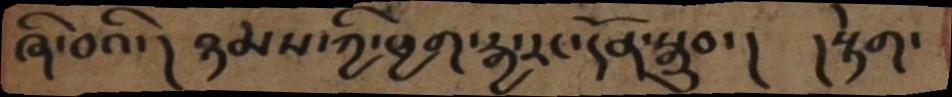ཞི་བའི་།  ཉམས་ཀྱི་ཕྱག་རྒྱ་རང་དོན་སྒྲུབ་།   །སྟེག་
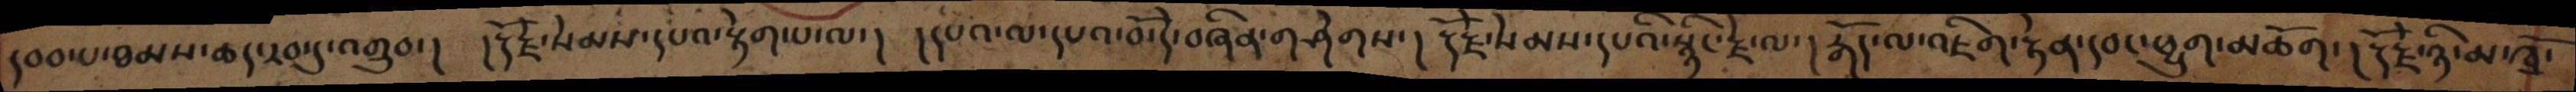དབབ་པ་ཐམས་ཆད་རབ་དུ་འགྲུབ་།  །རྡོ་རྗེ་སེམས་དཔའ་སྟེག་པ་ལ་།  །དཔའ་ལ་དཔའ་བོ་དེ་བཞིན་གཤེགས་།  རྡོ་རྗེ་སེམས་དཔའི་སྙིང་རྗེ་ལ་།  རྒོད་ལ་འཇིག་རྟེན་དབང་ཕྱུག་མཆོག་། རྡོ་རྗེ་ཉི་མ་ཁྲོ
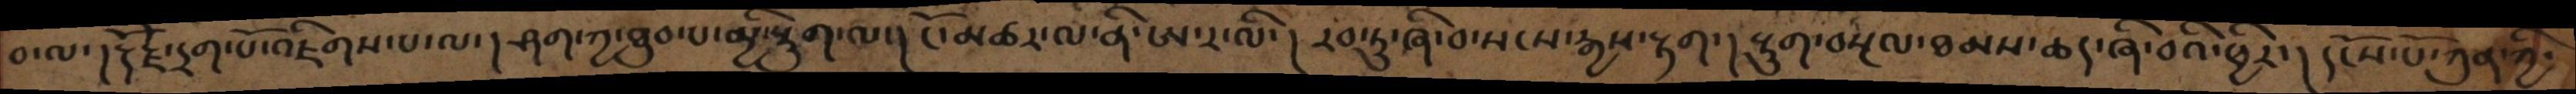བ་ལ་། རྡོ་རྗེ་དྲག་པོ་འཇིགས་པ་ལ་། ཤག་ཀྱ་ཐུབ་པ་མྱི་སྡུག་ལ་།  ངོ་མཚར་ལ་ནི་ཨ་ར་ལི་།  རབ་ཏུ་ཞི་བ་སངས་རྒྱས་རྟག་།  སྡུག་བསྔལ་ཐམས་ཆད་ཞི་བའི་ཕྱིར་། དངོས་པོ་ཀུན་ཀྱི་
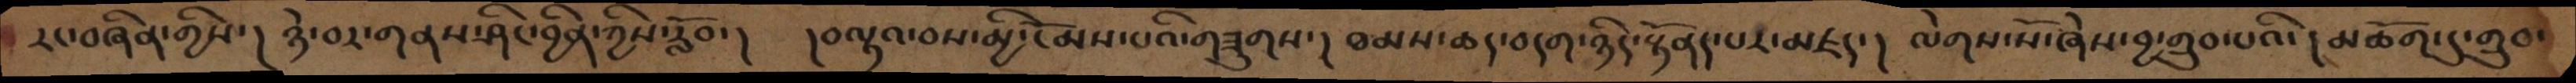རང་བཞིན་གྱིས་།  ཉེ་བར་གནས་ཤིང་བྱིན་ཀྱིས་རློབ་།  །བལྟའ་བས་མྱི་ངོམས་པའི་གཟུགས་།  ཐམས་ཆད་བདག་ཉིད་སྟོནད་པར་མཛད་།  ལེགས་སོ་ཞེས་བྱ་གྲུབ་པའི་།  མཆོག་དུ་གྲུབ་
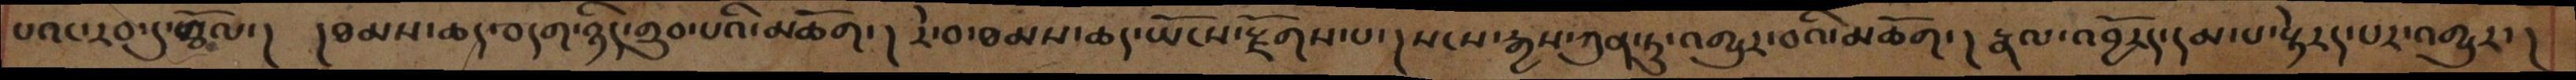པའང་རབ་དུ་བསྩོལ་།  །ཐམས་ཆད་བདག་ཉིད་གྲུབ་པའི་མཆོག་།  རེ་བ་ཐམས་ཆད་ཡོངས་རྫོགས་པ་། སངས་རྒྱས་ཀུན་ཏུ་འགྱུར་བའི་མཆོག་།  རྣལ་འབྱོར་དམ་པ་སྟེརད་པར་འགྱུར་།
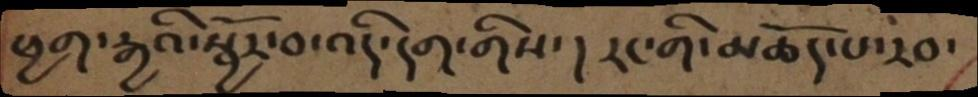ཕྱག་རྒྱའི་སྦྱོར་བ་འདི་དག་གིས་།  རང་གི་མཆོད་པ་རབ་
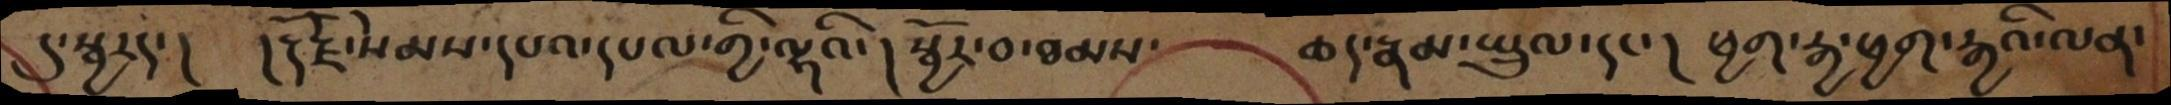དུ་སྦྱརད་།   །རྡོ་རྗེ་སེམས་དཔའ་དཔལ་གྱི་ལྷའི་། སྦྱོར་བ་ཐམས་  ཆད་རྣམ་སྤྲུལ་དང་།  ཕྱག་རྒྱ་ཕྱག་རྒྱའི་ལན་
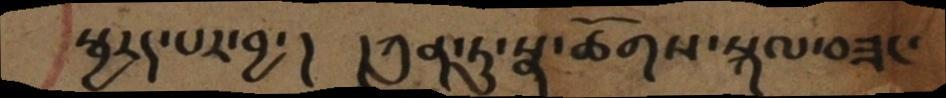སྦྱརད་པར་བྱ་།  །ཀུན་ཏུ་སྣ་ཚོགས་སྐལ་བཟང་
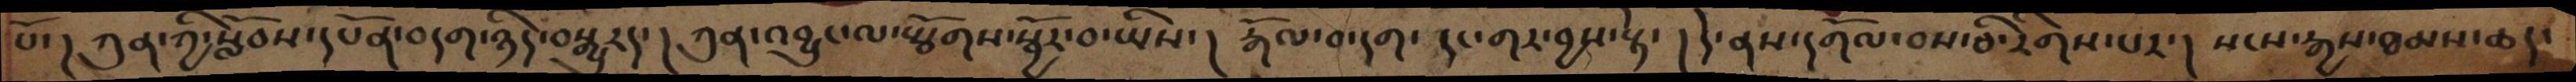པོ་། ཀུན་ཀྱི་སློབས་དཔོན་བདག་ཉིད་བསྒྱུརད་། ཀུན་འབྱུང་ལ་སྩོགས་སྦྱོར་བ་ཡིས་། རྒོལ་བ་དག་དང་གར་བྱས་སྟེ་། དེ་ནས་དགོལ་བས་ཅི་རིགས་པར་། སངས་རྒྱས་ཐམས་ཆད་
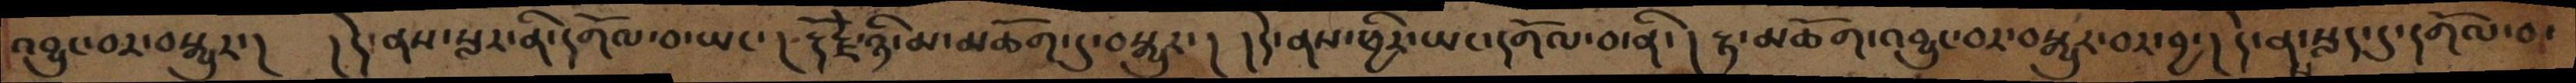འབྱུང་བར་བསྒྱུར་།   །དེ་ནས་སླར་ནི་དགོལ་བ་ཡང་།  རྡོ་རྗེ་ཉི་མ་མཆོག་དུ་བསྒྱུར་།  །དེ་ནས་ཕྱིར་ཡང་དགོལ་བ་ནི་།  རྟ་མཆོག་འབྱུང་བར་བསྒྱུར་བར་བྱ་།  དེ་ནས་སླད་དུ་དགོལ་བ་
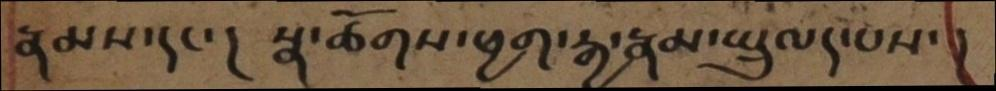རྣམས་དང་།     སྣ་ཚོགས་ཕྱག་རྒྱ་རྣམ་སྤྲུལད་པས་ །
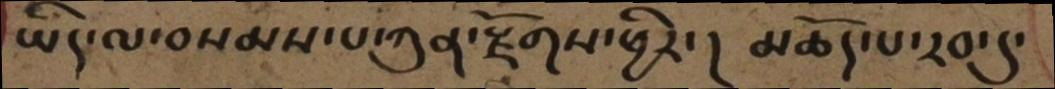ཡིད་ལ་བསམས་པ་ཀུན་སྫོགས་ཕྱིར་།  མཆོད་པ་རབ་དུ་
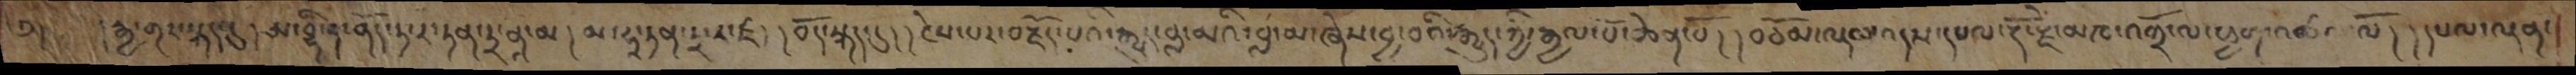༄།       །རྒྱ་གར་སྐད་དུ།  ཨ་བྷི་ཧ་ནོད་ཏ་ར་ཏན་ཏྲ་ནཱ་མ།  མ་ཧཱ་ཏན་ཏྲ་ར་ཛ།  །བོད་སྐད་དུ། །ངེས་པར་བརྗོད་པའི་རྒྱུད་བླ་མའི་བླ་མ་ཞེས་བྱ་བའི་རྒྱུད་ཀྱི་རྒྱལ་པོ་ཆེན་པོ། །བཅོམ་ལྡམ་འདས་དཔལ་རྡོ་རྗེ་མཁ་འགྲོ་ལ་ཕྱག་འཚལ་ལོ། །དཔལ་ལྡན་
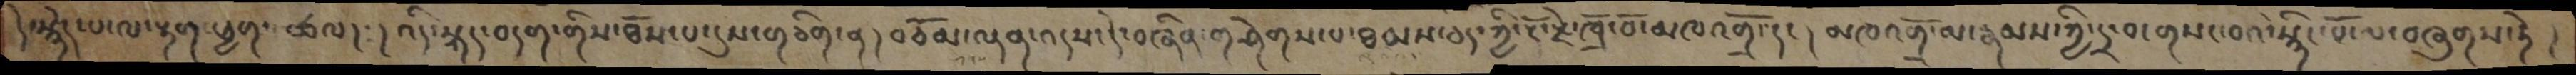དེ་སྙེད་པ་ལ་རྟག་ཕྱག་འཚལ། །འདི་སྐད་བདག་གིས་ཐོས་པ་དུས་གཅིག་ན། བཅོམ་ལྡན་འདས་དེ་བཞིན་གཤེགས་པ་ཐམས་ཅད་ཀྱི་རྡོ་རྗེ་ཁྲོ་བོ་མཁའགྲོ་དང། མཁའགྲོ་མ་རྣམས་ཀྱི་དྲ་བ་གསང་བའི་སྙིང་པོ་ལ་བཞུགས་ཏེ །
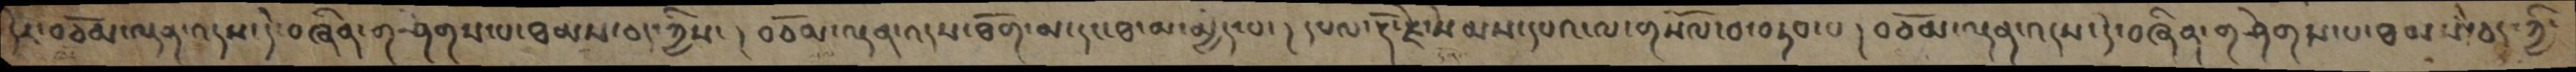དེར་བཅོམ་ལྡན་འདས་དེ་བཞིན་གཤེགས་པ་ཐམས་ཅད་ཀྱིས་། བཅོམ་ལྡན་འདས་ཐོག་མ་དང་ཐ་མ་མྱེད་པ་། དཔལ་རྡོ་རྗེ་སེམས་དཔའ་ལ་གསོལ་བ་བཏབ་པ། བཅོམ་ལྡན་འདས་དེ་བཞིན་གཤེགས་པ་ཐམས་ཅད་ཀྱི་
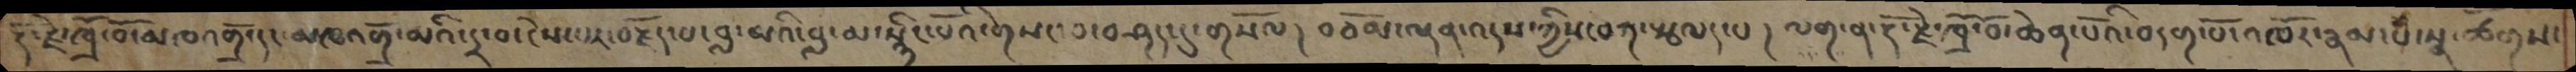རྡོ་རྗེ་ཁྲོ་བོ་མཁའགྲོ་དང་མཁའགྲོ་མའི་དྲ་བ་ངེས་པར་བརྗོད་པ་བླ་མའི་བླ་མ་སྙིང་པོའི་གསང་བ་བཤད་དུ་གསོལ། བཅོམ་ལྡན་འདས་ཀྱིས་བཀ་སྩལད་པ། ལག་ན་རྡོ་རྗེ་ཁྲོ་བོ་ཆེན་པོ༷འི་བདག་པོ་འཁོར་རྣམ་པ་སྣ་ཚོགས་
